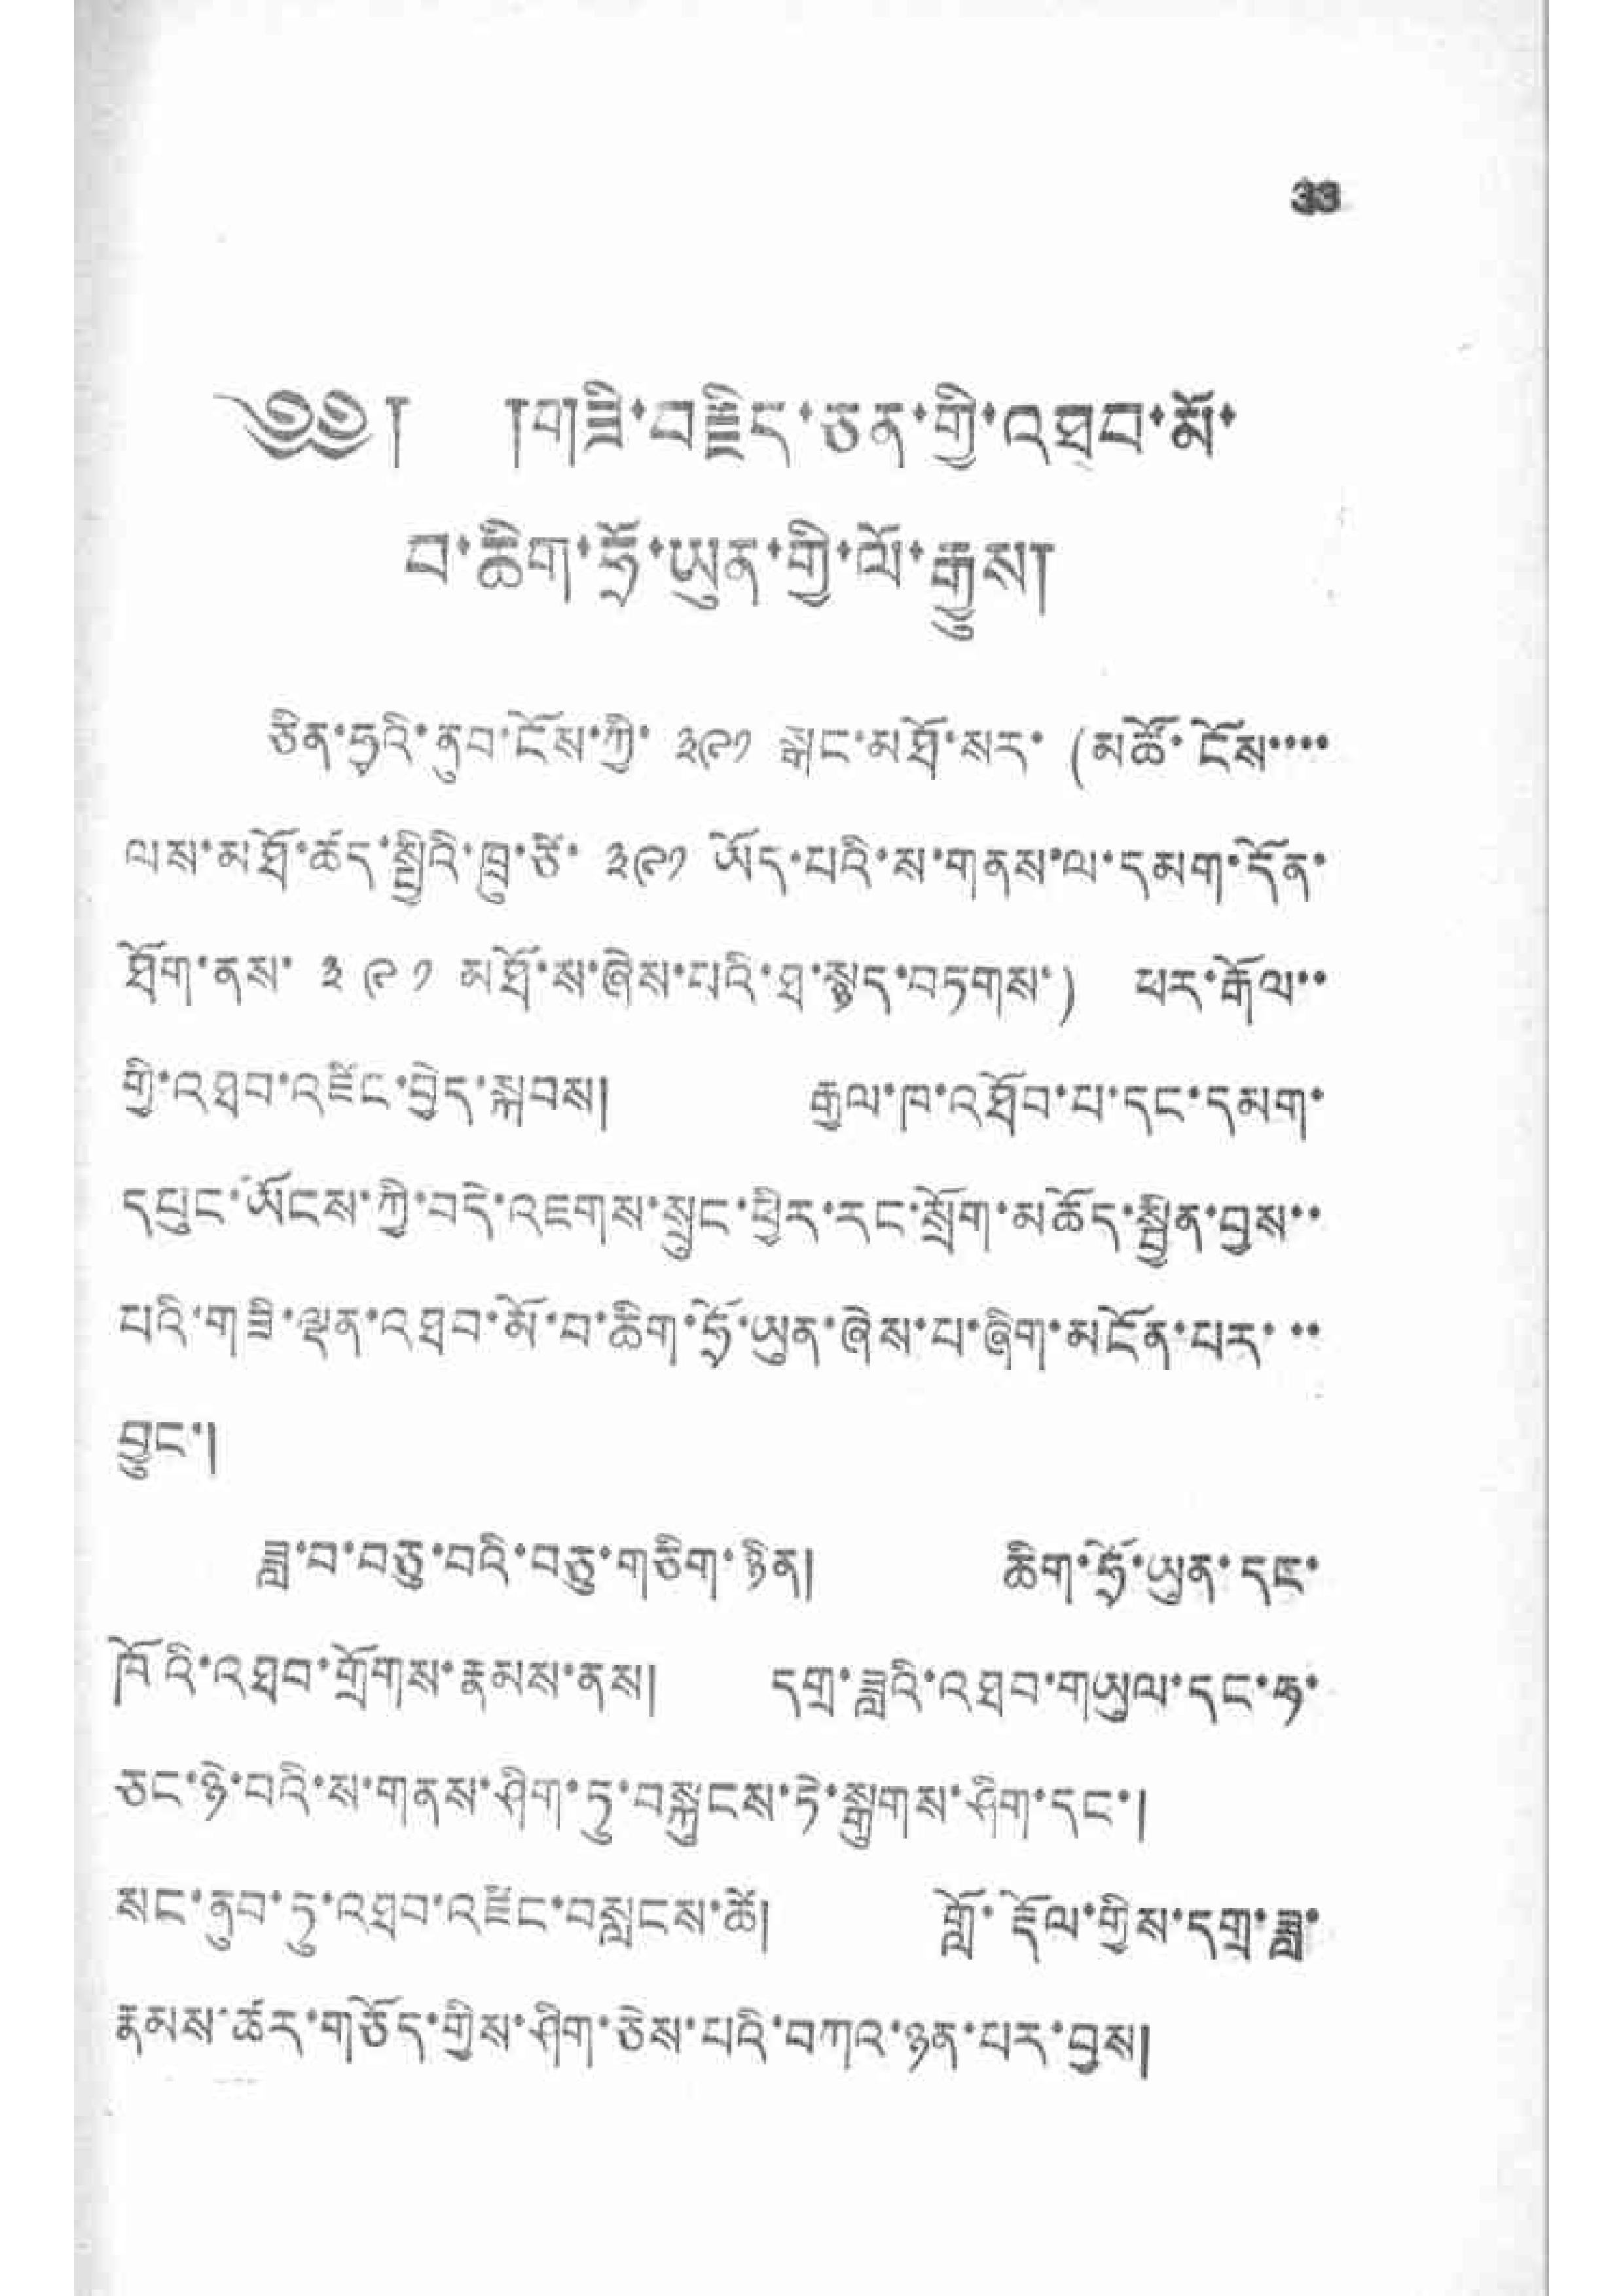33
༄༅། །གཟི་བརྗིད་ཅན་གྱི་འཐབ་མོ་
བ་ཆིག་ཧྲོ་ཡུན་གྱི་ལོ་རྒྱུས།
ཅིན་ཧྭའི་ནུབ་ངོས་ཀྱི་ ༣༩༡ སྒང་མཐོ་སར་ (མཚོ་ངོས་་་་
ལས་མཐོ་ཚད་སྤྱིའི་ཁྲུ་ཙི་ ༣༩༡ ཡོད་པའི་ས་གནས་ལ་དམག་དོན་
ཐོག་ནས་ ༣༩༡ མཐོ་ས་ཞེས་པའི་ཐ་སྙད་བཏགས་) ཕར་རྒོལ་་
གྱི་འཐབ་འཛིང་བྱེད་སྐབས། རྒྱལ་ཁ་འཐོབ་པ་དང་དམག་
དཔུང་ཡོངས་ཀྱི་བདེ་འཇགས་སྲུང་ཕྱིར་རང་སྲོག་མཆོད་སྦྱིན་བྱས་་
པའི་གཟི་ལྡན་འཐབ་མོ་བ་ཆིག་ཧྲོ་ཡུན་ཞེས་པ་ཞིག་མངོན་པར་་་
བྱུང་།
ཟླ་བ་བཅུ་བའི་བཅུ་གཅིག་ཉིན། ཆིག་ཧྲོ་ཡུན་དང་
ཁོའི་འཐབ་གྲོགས་རྣམས་ནས། དགྲ་ཟླའི་འཐབ་གཡུལ་དང་ཧ་
ཅང་ཉེ་བའི་ས་གནས་ཤིག་ཏུ་བསྐྱངས་ཏེ་སྒུགས་ཤིག་དང་།
སང་ནུབ་ཏུ་འཐབ་འཛོང་བསླངས་ཚེ། གློ་རྡོལ་གྱིས་དགྲ་ཟླ་
རྣམས་ཚར་གཅོད་གྱིས་ཤིག་ཅེས་པའི་བཀའ་ཉན་པར་བྱས།
